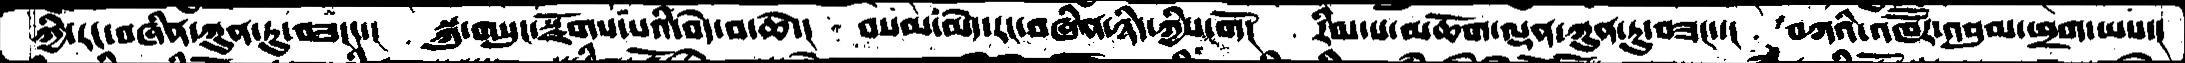ཀྱི་རང་བཞིན་ཀུན་ཏུ་བཟངད་།  སྐུ་གསུང་སྫོག་ས་པའི་བདེ་བ་ཆེ་།  བསམ་མེད་རང་བཞིན་ཉིད་ཀྱིས་གོ།  རིམ་པ་མཆོག་ལྡན་ཀུན་ཏུ་བཟང་་།  བཀའི་འཁཽར་འབུམ་ཕྲག་ཡས་།
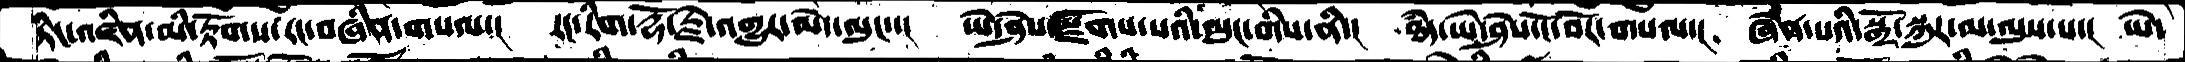ཏིང་འཛིན་མི་རྟོགས་རང་བཞིན་གསལ་།  རང་རིག་རྡོ་རྗེ་འགྱུར་མེད་ལུང་་།  ཡེ་ཤེས་སྫོགས་པའི་ལུང་གིས་ནི་།  ཐདཾ་ཡེ་ཤེས་ངོ་བོར་གསལ་།  ཞེན་པའི་སྒྲོ་སྐུར་མ་ལུས་པ་།  ཡེ་
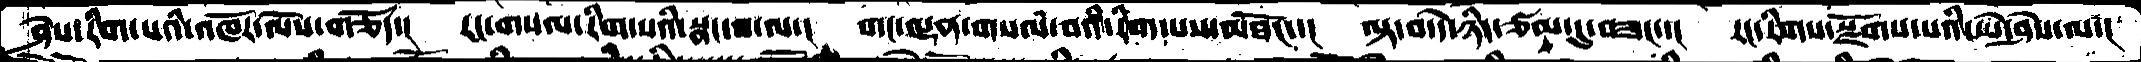ཤེས་རིག་པའི་འཁོར་ལོས་གཅོད་།  རང་གསལ་རིག་པའི་སྣང་བ་ལ་།  གང་ལྷན་གསལ་བའི་རིག་པས་མཐོང་་།  ལྟ་བ་དེ་ཉིད་ཙམ་དུ་བཟང་།  རང་རིགས་སྫོགས་པའི་ཡེ་ཤེས་ལ་།
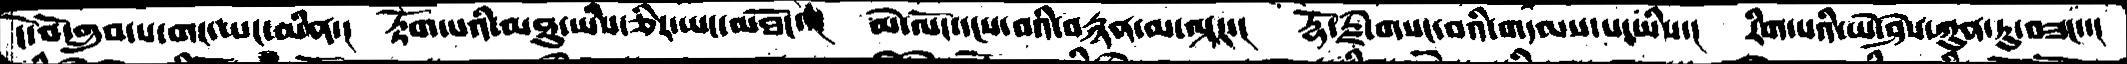ངོ་བོ་གྲུབ་པ་གང་ཡང་མིན་།   རྟོག་པའི་མཐུ་ཡིས་ཅིར་ཡང་མཐོང་།    མེ་ལོང་དངས་བའི་བརྙན་མ་ལྟར་།  རྡོ་རྗེ་གསང་བའི་གདམས་པ་ཡིས་།   རིག་པའི་ཡེ་ཤེས་ཀུན་ཏུ་བཟང་།
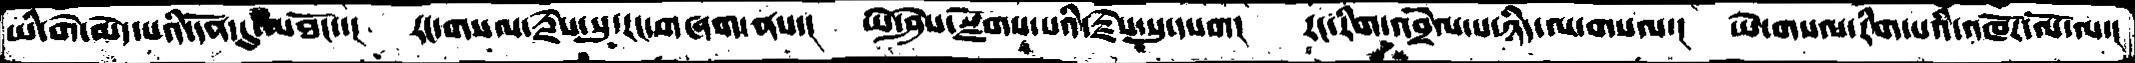ཡི་གེ་མེད་པའི་དོན་དུ་མཐོང་།  རང་གསལ་རྗེས་སུ་རང་གཞག་ནས་།   ཡེ་ཤེས་སྫོགས་པའི་རྗེས་སུ་དཔག།   རང་རིག་འབྲེལ་པ་ཉིད་ལ་གསལ་།   ཡེ་གསལ་རིག་པའི་འཁོར་ལོ་ལ་།
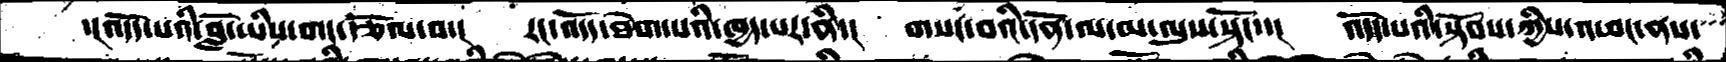་།འདོད་པའི་བློ་ཡིས་གང་རྩོལ་བ་།   རང་འདོད་ཐེག་པའི་ཁྱད་པར་ནི་།   གསང་བའི་དོན་ལ་མ་ལུས་སྟོད་་།  འདོད་པའི་སྟོབས་ཀྱིས་འཕང་ནས་
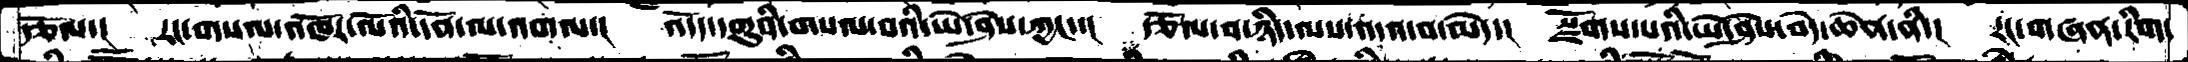རྩོལ་།   རང་གསལ་འཁོར་ལོའི་དོན་ལ་འགལ་།   འདོད་དགུའི་གསལ་བའི་ཡེ་ཤེས་ཀྱང་།   རྩོལ་བ་ཉིད་ལས་འདའ་བ་མེད་།   སྫོགས་པའི་ཡེ་ཤེས་བདེ་ཆེན་ནི་།  རང་གཞན་རིག་
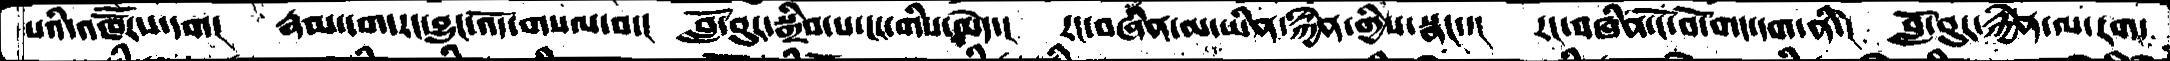པའི་འཁཽརས་དག།   རྣམ་དག་རང་བྱུང་འོད་གསལ་བ་།   བློ་བུར་སྒྲིབ་པ་ངང་གིས་མེད་།   རང་བཞིན་མ་ཡིན་རྐྱེན་གྱིས་སྣང་་།  རང་བཞིན་ངོ་བོ་གང་དག་ནི་།   བློ་བུར་རྐྱེན་ལ་རག་
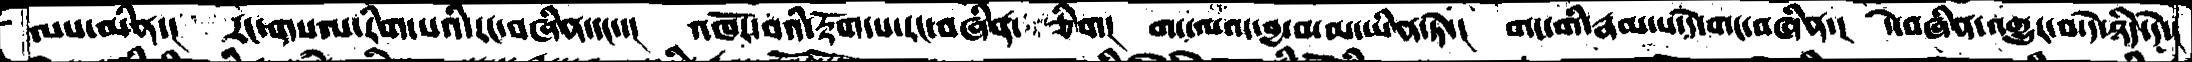ལས་མིན་།  རང་གསལ་རིག་པའི་རང་བཞིན་དང་།  འཁོར་བའི་རྟོག་པ་རང་བཞིན་ཅིག་།  གང་ལའང་བྱ་བ་མ་ཡིན་ཏེ་།  གང་གི་རྣམ་པ་དེ་གང་བཞིན་།  དེ་བཞིན་འགྱུར་བ་དེ་ཉིད་དེ་།
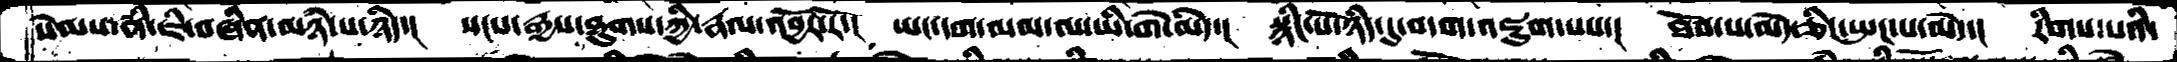སེམས་ནི་ཇི་བཞིན་མཉཾ་པ་ཉིད་།  སངས་རྒྱས་ཐུགས་ཀྱི་རྣལ་འབྱོར་རོ་།  ཡང་དག་ལམ་ལ་ཡི་གེ་མེད་།  སྙིང་པོ་ཉིད་དུ་བདག་འཇུག་པས་།  ཐོབ་པ་མེད་ཅིང་སྤང་པ་མེད་།  རིགས་པའི་
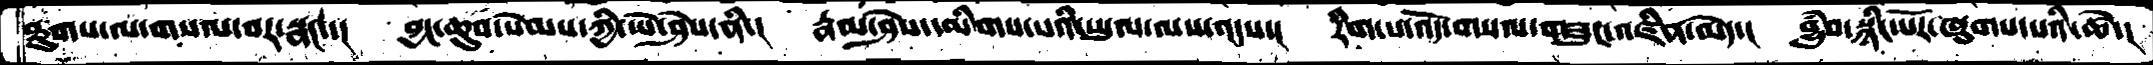ཐུགས་ལ་གསལ་བར་སྣང་།  བྱང་ཆུབ་སེེམས་ཀྱི་ཡེ་ཤེས་ནི་།  རྣམ་ཤེས་དམིགས་པའི་ཡུལ་ལས་འདས་།  རིག་པ་འོད་གསལ་གཟུང་འཛིན་མེད་།  བྱུབཾ་སྙིང་པོར་ཞུགས་པའི་ཚེ་།
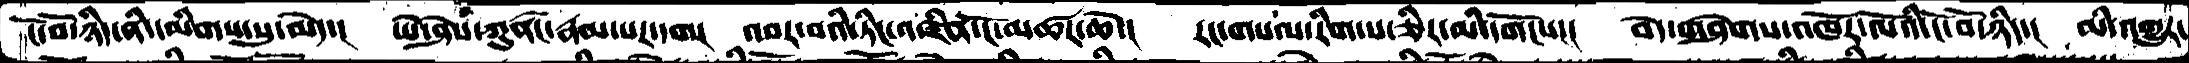ངོ་བོ་ཉིད་ནི་དམིགས་སུ་མེད་།  ཡེ་ཤེས་ཀུནཟང་རྣམ་པར་དག།  འབར་བའི་ཏིང་འཛིན་ངོ་མཚར་ཆེ་།  རང་གསལ་རིག་པ་ཅིར་མི་དགོངས་།  བདེ་གཤེགས་འཁོར་ལོའི་ངོ་བོ་ཉིད་།  མི་འགྱུར་
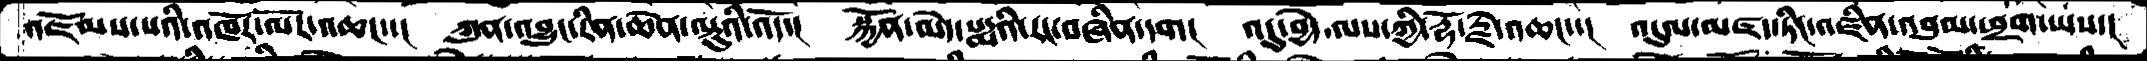འཇོམས་པའི་འཁོར་ལོར་འཆང་།  ཀུན་འབྱུང་རིན་ཆེན་ལྟུའི་འོད་།  སྐྱོན་མེད་པདྨའི་རང་བཞིན་དག།  འདུ་བྱེད་ལས་ཀྱི་རྡོ་རྗེ་འཆང་།  འདུལ་མཛད་ཏིང་འཛིན་འབུམ་ཕྲག་ཡས་།
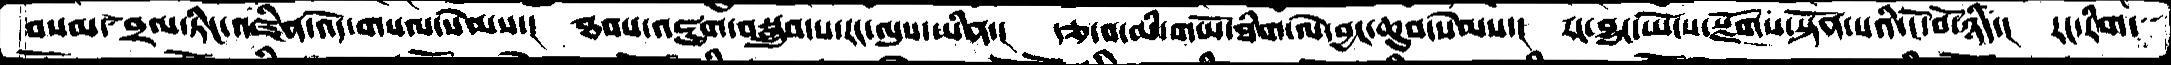བསམ་བྲལ་ཏིང་འཛིན་འོད་གསལ་སེམས་།  ཐབས་འཇུག་བསྒྲུབ་པ་རང་ལུས་ཡིན་།  རྩ་བ་མི་གཡོ་ཐིག་ལེ་བྱང་ཆུབ་སེམས་།  རང་བྱུང་ཡོངས་སྫོགས་སྟོན་པའི་ངོ་བོ་ཉིད་།  རང་རིག་
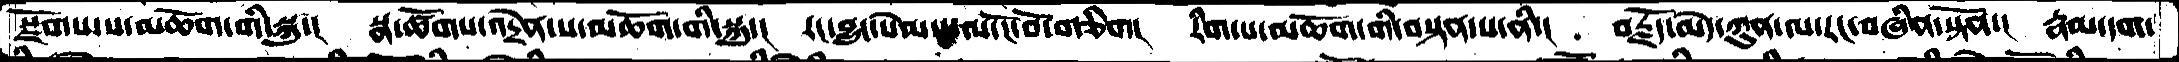སྫོགས་པ་མཆོག་གི་སྐུ་།  སྣ་ཚོགས་འདྲེན་པ་མཆོག་གི་སྐུ་།  རང་བྱུང་སེམས་ལ་ངོ་བོ་གཅིག།  རིག་པ་མཆོག་གི་བསྟན་པ་ནི་།  བརྗོད་མེད་ཀུན་ལ་རང་བཞིན་སྟོན་། རྣམ་དག་
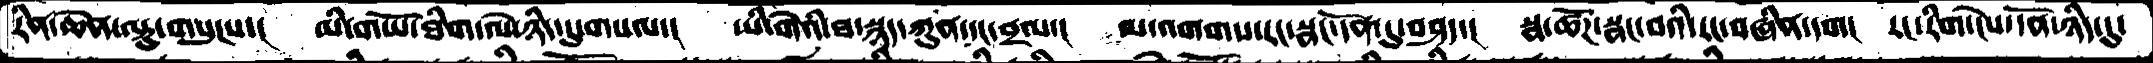རིན་ཆེན་ལྟུ་གསུངས་།  མི་གཡོ་ཐིག་ལེ་ཉིད་དུ་གསལ་།  ཡི་གེའི་ཐ་སྙད་ཀུན་དང་བྲལ་།  མ་འགགས་རང་སྣང་དོན་དུ་བཤད་། སྣ་ཚོཌ་སྣང་བའི་རང་བཞིན་དག།  རང་རིག་ངེས་དོན་ཉིད་དུ་
